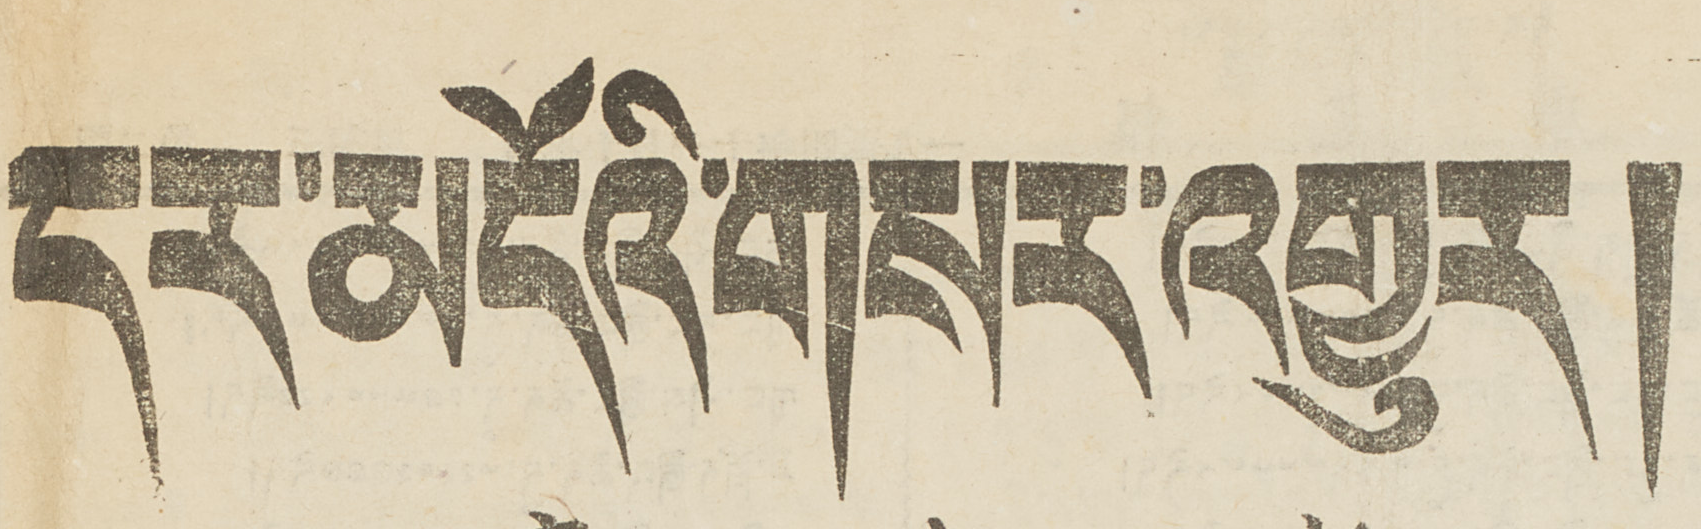དར་མདོའི་གསར་འགྱུར།
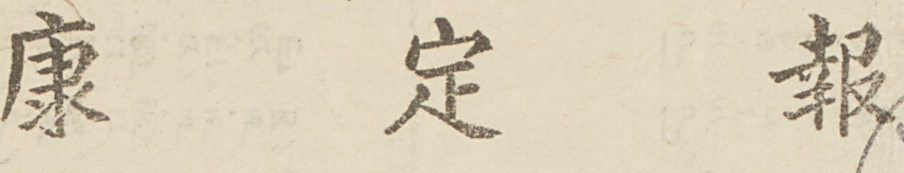康 定 報
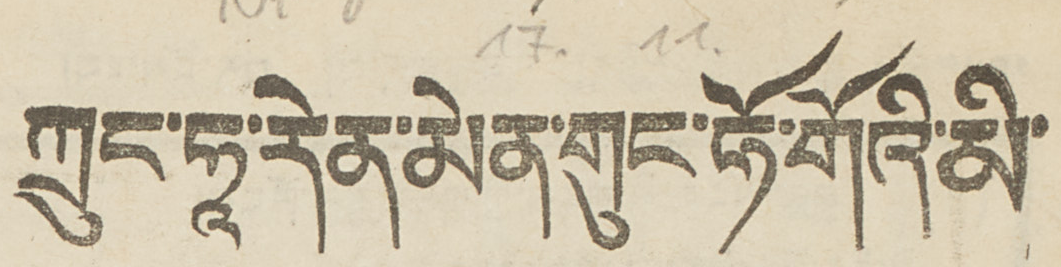ཀྲུང་ཧཱ་རེན་མེན་གུང་ཧོ་གོའི་མི་
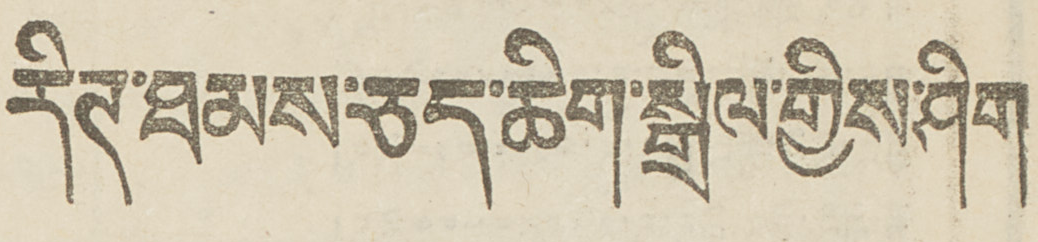རིཊ་ཐམས་ཅད་ཆིག་སྒྲིལ་གྱིས་ཤིག
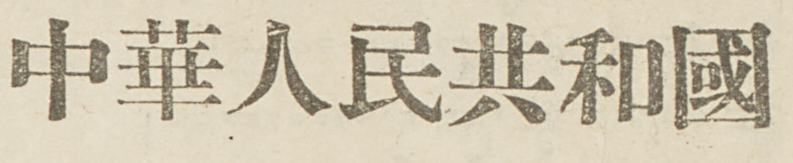中華人民共和國
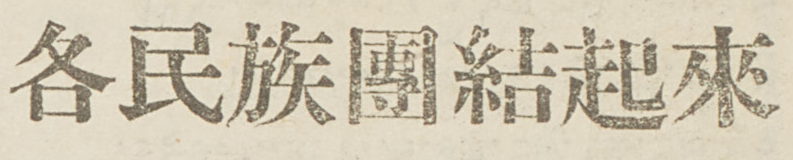各民族團結起來
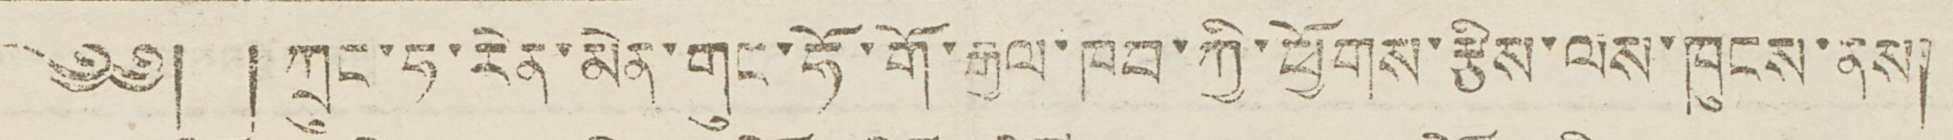༄༅། ། ཀྲུང་ཧ་རེན་མེན་གུང་ཧོ་གོ་རྒྱལ་ཁབ་ཀྱི་ཕྱོགས་རྩིས་ལས་ཁུངས་ནས།
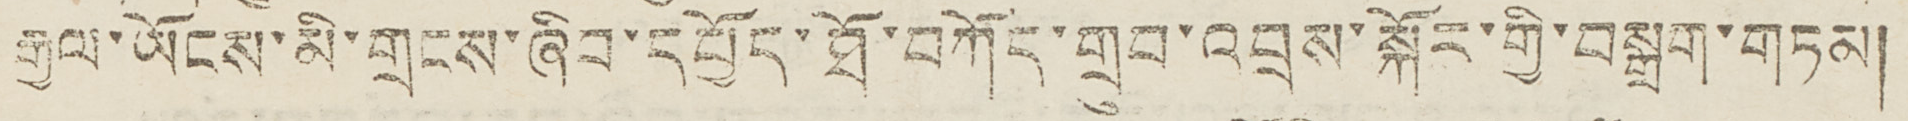རྒྱལ་ཡོངས་མི་གྲངས་ཞིབ་དཔྱོད་ཐོ་བཀོད་གྲུབ་འབྲས་སྐོར་གྱི་བསྒྲག་གཏམ།
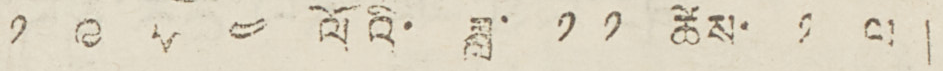༡ ༩ ༥ ༤ ལོའི་ ཟླ་ ༡ ༡ ཚེས་ ༡ ལ །
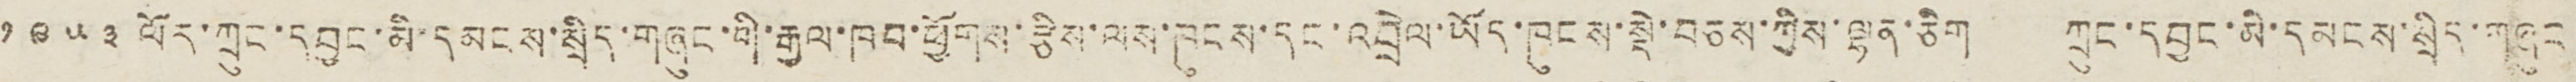༡༩༥༣ ལོར་ཀྲུང་དབྱང་མི་དམངས་སྲིད་གཞུང་གི་རྒྱལ་ཁབ་ཕྱོགས་རྩིས་ལས་ཁུངས་དང་འབྲེལ་ཡོད་ཁུངས་སྡེ་བཅས་ཀྱིས་ལྷན་ཅིག ཀྲུང་དབྱང་མི་དམངས་སྲིད་གཞུང
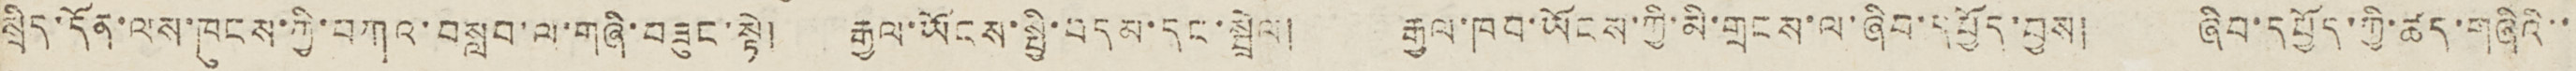སྲིད་དོན་ལས་ཁུངས་ཀྱི་བཀའ་བསླབ་ལ་གཞི་བཟུང་སྟེ། རྒྱལ་ཡོངས་སྤྱི་བདམ་དང་སྦྲེལ། རྒྱལ་ཁབ་ཡོངས་ཀྱི་མི་གྲངས་ལ་ཞིབ་དཔྱོད་བྱས། ཞིབ་དཔྱོད་ཀྱི་ཚད་གཞིའི་་
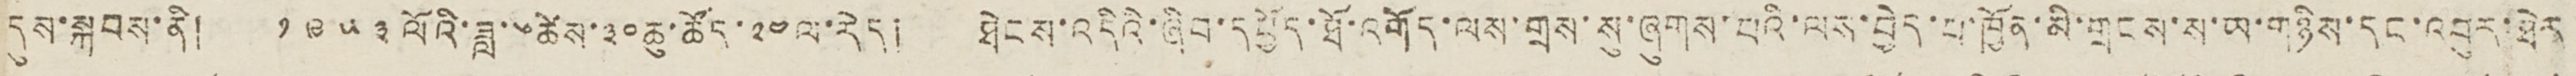དུས་སྐབས་ནི། ༡༩༥༣ལོའི་ཟླ་༦ཚེས་༣༠ཆུ་ཚོད་༢༤ལ་རེད། ཐེངས་འདིའི་ཞིབ་དཔྱོད་ཐོ་འགོད་ལས་གྲས་སུ་ཞུགས་པའི་ལས་བྱེད་པ་ཁྱོན་མི་གྲངས་ས་ཡ་གཉིས་དང་འབུར་ཐེར
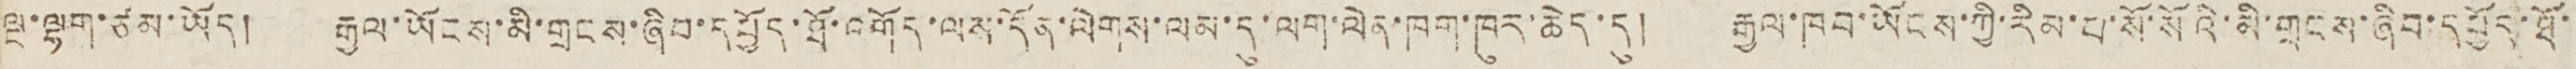ལྔ་ལྷག་ཙམ་ཡོད། རྒྱལ་ཡོངས་མི་གྲངས་ཞིབ་དཔྱོད་ཐོ་འགོད་ལས་དོན་ལེགས་ལམ་དུ་ལག་ལེན་ཁག་ཁུར་ཆེད་དུ། རྒྱལ་ཁབ་ཡོངས་གྱི་རིམ་པ་སོ་སོའི་མི་གྲངས་ཞིབ་དཔྱོད་ཐོ་
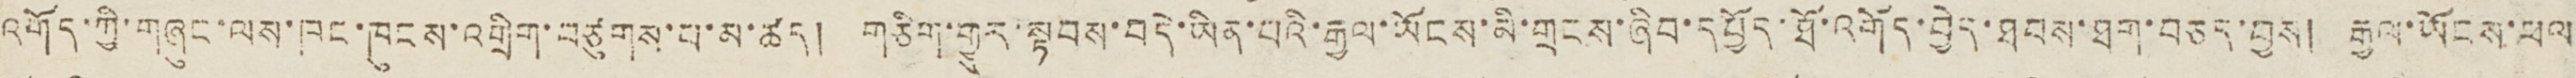འགོད་ཀྱི་གཞུང་ལས་ཁང་ཁུངས་འགྲིག་བཙུགས་པ་མ་ཚད། གཅིག་གྱུར་སྟབས་བདེ་ཡིན་པའི་རྒྱལ་ཡོངས་མི་གྲངས་ཞིབ་དཔྱོད་ཐོ་འགོད་བྱེད་ཐབས་ཐག་བཅད་བྱས། རྒྱལ་ཡོངས་ཕལ
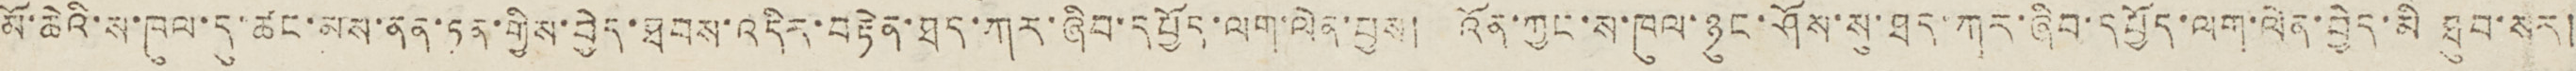མོ་ཆེའི་ས་ཁུལ་དུ་ཚང་མས་ནན་ཏན་གྱིས་བྱེད་ཐབས་འདིར་བརྟེན་ཐད་ཀར་ཞིབ་དཔྱོད་ལག་ལེན་བྱས། འོན་ཀྱང་ས་ཁུལ་ཉུང་ཤོས་སུ་ཐད་ཀར་ཞིབ་དཔྱོད་ལག་ལེན་བྱེད་མི ཐུབ་སར།
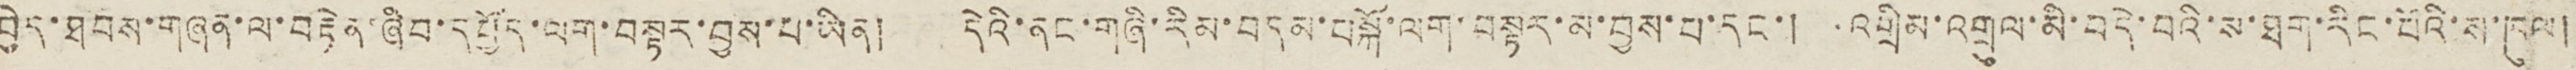བྱེད་ཐབས་གཞན་ལ་བརྟེན་ཞིབ་དཔྱོད་ལག་བསྟར་བྱས་པ་ཡིན། དེའི་ནང་གཞི་རིམ་བདམ་བསྐོ་ལག་བསྟར་མ་བྱས་པ་དང་། འགྲིམ་འགྲུལ་མི་བདེ་བའི་ས་ཐག་རིང་པོའི་ས་ཁུལ།
